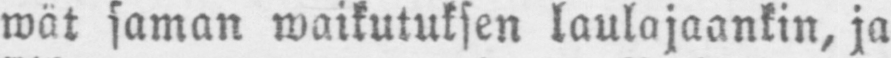wät saman waikutuksen laulajaankin, ja
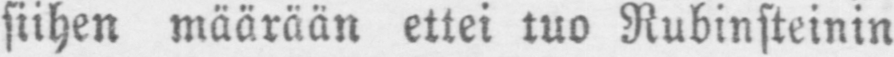siihen määrään ettei tuo Rubinsteinin
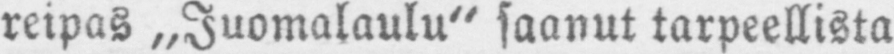reipas „Juomalaulu" saanut tarpeellista
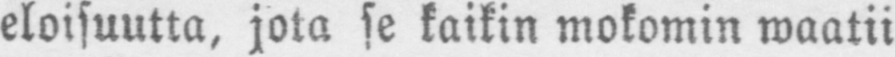eloisuutta, jota se kaikin mokomin waatii
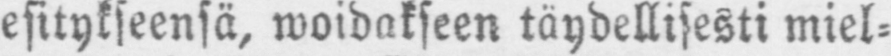esitykseensä, woidakseen täydellisesti miel-
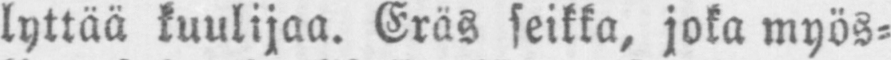lyttää kuulijaa. Eräs seikka, joka myös-
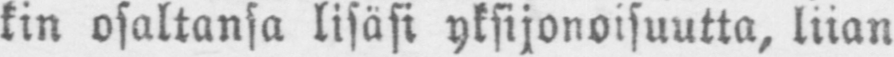kin osaltansa lisäsi yksijonoisuutta, liian
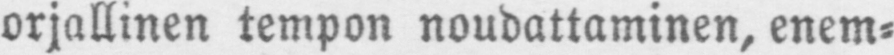orjallinen tempon noudattaminen, enem-
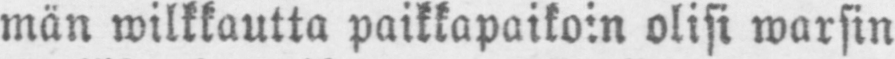män wilkkautta paikkapaikoin olisi warsin
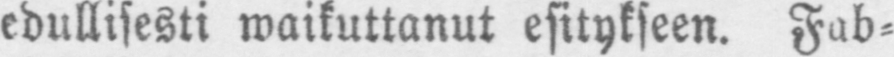edullisesti waikuttanut esitykseen. Fab-
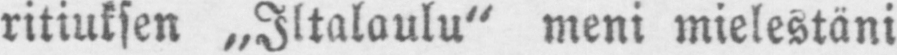ritiuksen „Iltalaulu" meni mielestäni
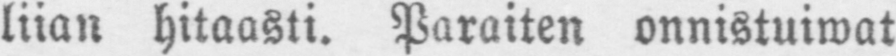liian hitaasti. Paraiten onnistuiwat
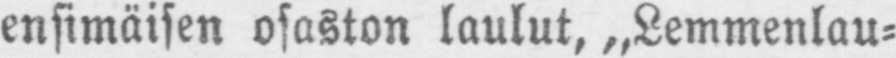ensimäisen osaston laulut, „Lemmenlau-
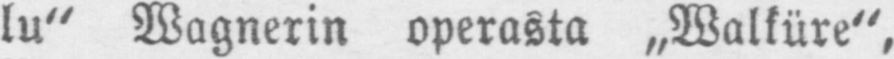lu" Wagnerin operasta „Walküre",
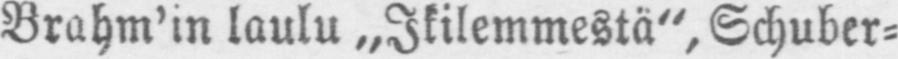Brahm'in laulu „Ikilemmestä", Schuber-
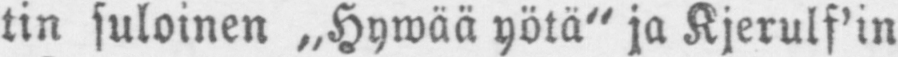tin suloinen „Hywää yötä" ja Kjerulf'in
